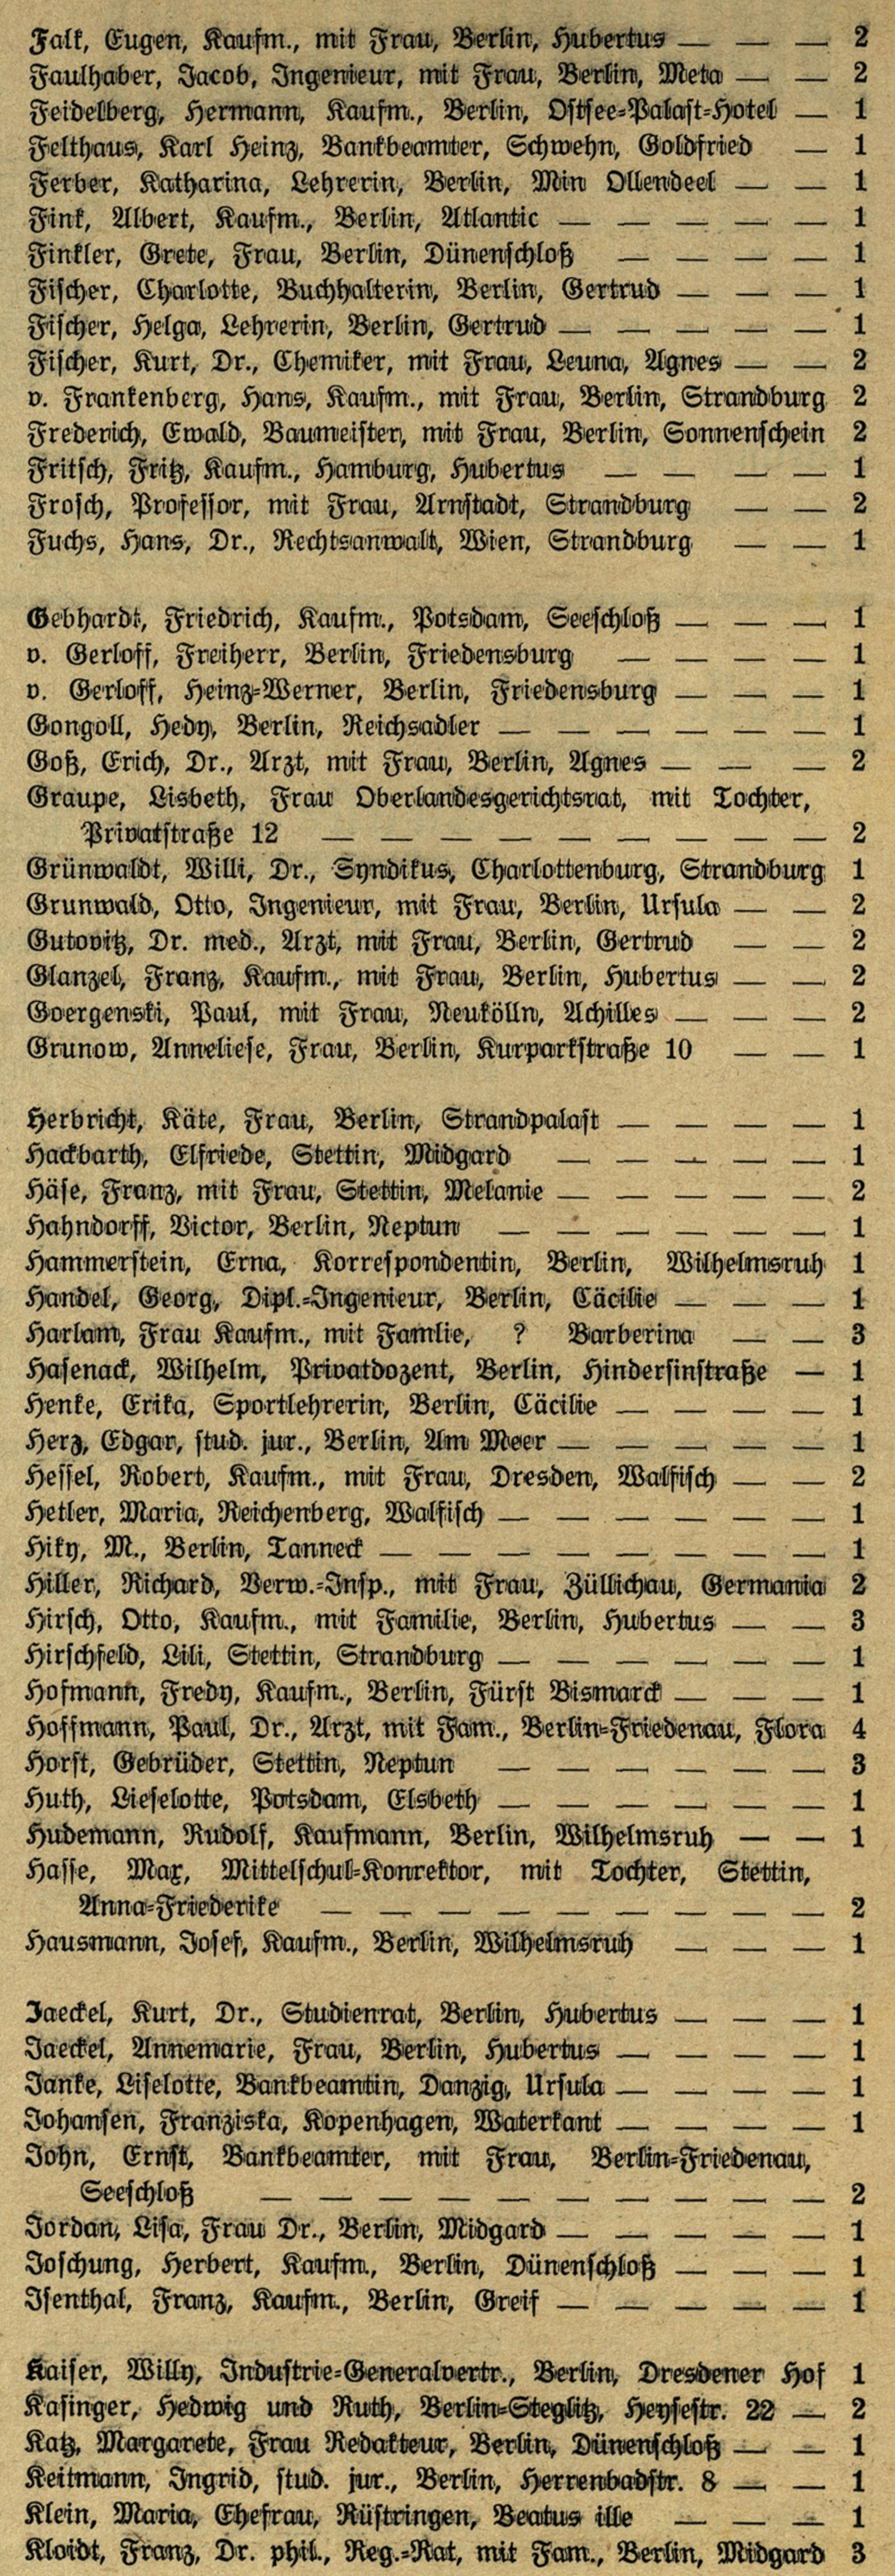Falk, Eugen, Kaufm., mit Frau, Berlin, Hubertus | 2
Faulhaber, Jacob, Ingenieur, mit Frau, Berlin, Meta | 2
Feidelberg, Hermann, Kaufm., Berlin, Ostsee=Palast=Hotel | 1
Felthaus, Karl Heinz, Bankbeamter, Schwehn, Goldfried | 1
Ferber, Katharina, Lehrerin, Berlin, Min Ollendeel | 1
Fink, Albert, Kaufm., Berlin, Atlantic | 1
Finkler, Grete, Frau, Berlin, Dünenschloß | 1
Fischer, Charlotte, Buchhalterin, Berlin, Gertrud | 1
Fischer, Helga, Lehrerin, Berlin, Gertrud | 1
Fischer, Kurt, Dr., Chemiker, mit Frau, Leuna, Agnes | 2
v. Frankenberg, Hans, Kaufm., mit Frau, Berlin, Strandburg | 2
Frederich, Ewald, Baumeister, mit Frau, Berlin, Sonnenschein | 2
Fritsch, Fritz, Kaufm., Hamburg, Hubertus | 1
Frosch, Professor, mit Frau, Arnstadt, Strandburg | 2
Fuchs, Hans, Dr., Rechtsanwalt, Wien, Strandburg | 1
Gebhardt, Friedrich, Kaufm., Potsdam, Seeschloß | 1
v. Gerloff, Freiherr, Berlin, Friedensburg | 1
v. Gerloff, Heinz=Werner, Berlin, Friedensburg | 1
Gongoll, Hedy, Berlin, Reichsadler | 1
Goß, Erich, Dr., Arzt, mit Frau, Berlin, Agnes | 2
Graupe, Lisbeth, Frau Oberlandesgerichtsrat, mit Tochter,
Privatstraße 12 | 2
Grünwaldt, Willi, Dr., Syndikus, Charlottenburg, Strandburg | 1
Grunwald, Otto, Ingenieur, mit Frau, Berlin, Ursula | 2
Gutovitz, Dr. med., Arzt, mit Frau, Berlin, Gertrud | 2
Glanzel, Franz, Kaufm., mit Frau, Berlin, Hubertus | 2
Goergenski, Paul, mit Frau, Neukölln, Achilles | 2
Grunow, Anneliese, Frau, Berlin, Kurparkstraße 10 | 1
Herbricht, Käte, Frau, Berlin, Strandpalast | 1
Hackbarth, Elfriede, Stettin, Midgard | 1
Häse, Franz, mit Frau, Stettin, Melanie | 2
Hahndorff, Victor, Berlin, Neptun | 1
Hammerstein, Erna, Korrespondentin, Berlin, Wilhelmsruh | 1
Handel, Georg, Dipl.=Ingenieur, Berlin, Cäcilie | 1
Harlam, Frau Kaufm., mit Familie, ? Barberina | 3
Hasenack, Wilhelm, Privatdozent, Berlin, Hindersinstraße | 1
Henke, Erika, Sportlehrerin, Berlin, Cäcile | 1
Herz, Edgar, stud. jur., Berlin, Am Meer | 1
Hessel, Robert, Kaufm., mit Frau, Dresden, Walfisch | 2
Hetler, Maria, Reichenberg, Walfisch | 1
Hiky, M., Berlin, Tanneck | 1
Hiller, Richard, Verw.=Insp., mit Frau, Züllichau, Germania | 2
Hirsch, Otto, Kaufm., mit Familie, Berlin, Hubertus | 3
Hirschfeld, Lili, Stettin, Strandburg | 1
Hofmann, Fredy, Kaufm., Berlin, Fürst Bismarck | 1
Hoffmann, Paul, Dr., Arzt, mit Fam., Berlin=Friedenau, Flora | 4
Horst, Gebrüder, Stettin, Neptun | 3
Huth, Lieselotte, Potsdam, Elsbeth | 1
Hudemann, Rudolf, Kaufmann, Berlin, Wilhelmsruh | 1
Hasse, Max, Mittelschul=Konrektor, mit Tochter, Stettin,
Anna Friederike | 2
Hausmann, Josef, Kaufm., Berlin, Wilhelmsruh | 1
Jaeckel, Kurt, Dr., Studienrat, Berlin, Hubertus | 1
Jaeckel, Annemarie, Frau, Berlin, Hubertus | 1
Janke, Liselotte, Bankbeamtin, Danzig, Ursula | 1
Johansen, Franziska, Kopenhagen, Waterkant | 1
John, Ernst, Bankbeamter, mit Frau, Berlin=Friedenau,
Seeschloß | 2
Jordan, Lisa, Frau Dr., Berlin, Midgard | 1
Joschung, Herbert, Kaufm., Berlin, Dünenschloß | 1
Isenthal, Franz, Kaufm., Berlin, Greif | 1
Kaise, Willy, Industrie=Generalvertr., Berlin, Dresdener Hof | 1
Kasinger, Hedwig und Ruth, Berlin=Steglitz, Heysestr. 22 | 2
Katz, Margarete, Frau Redakteur, Berlin, Dünenschloß | 1
Keitmann, Ingrid, stud. jur., Berlin, Herrenbadstr. 8 | 1
Klein, Maria, Ehefrau, Küstringen, Beatus ille | 1
Kloidt, Franz, Dr. phil., Reg.=Rat, mit Fam., Berlin, Midgard | 3
